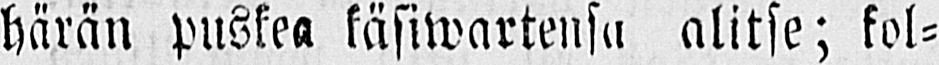härän puskea käsiwartensa alitse; kol-
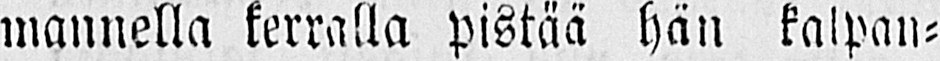mannella kerralla pistää hän kalpan-
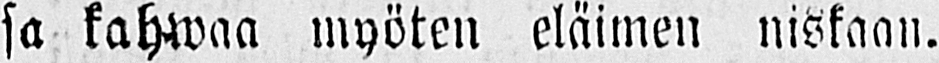sa kahwaa myöten eläimen niskaan.
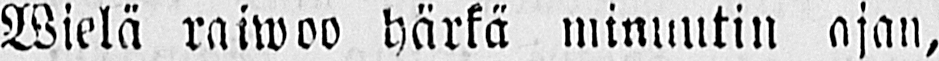Wielä raiwoo härkä minuntin ajan,
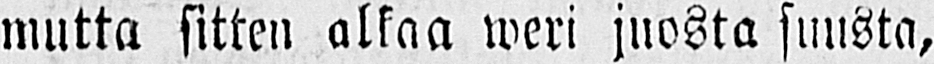mutta sitten alkaa weri juosta suusta,
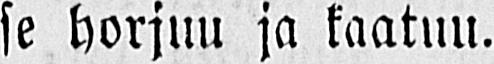se horjuu ja kaatuu.
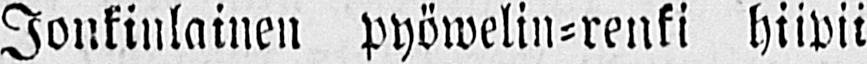Jonkinlainen pyöwelin-renki hiipii
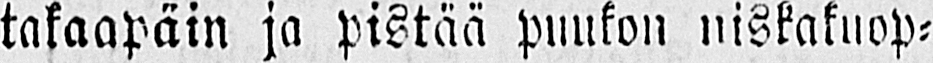takaapäin ja pistää puukon niskakuop-
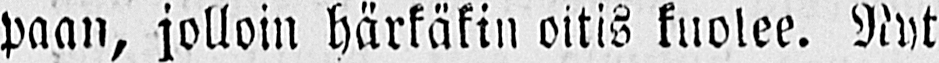paan, jolloin härkäkin oitis kuolee. Nyt
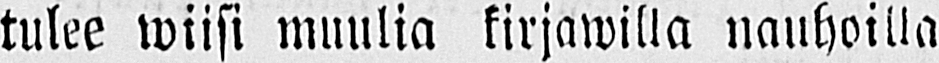tulee wiisi muulia kirjawilla nauhoilla
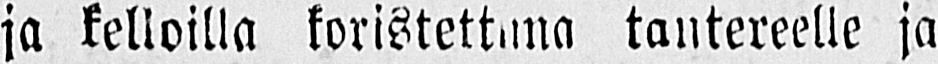ja kelloilla koristettuna tantereelle ja
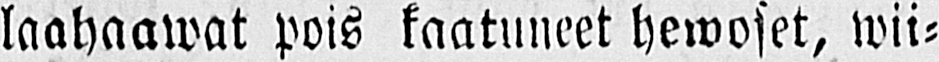laahaawat pois kaatuneet hewoset, wii-
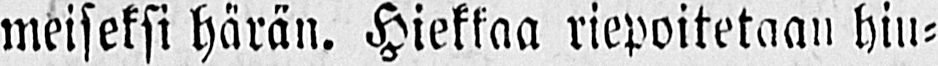meiseksi härän. Hiekkaa riepotetaan hiu-
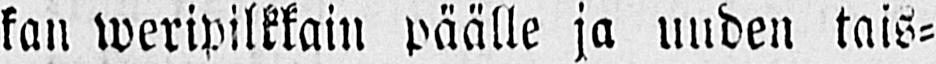kan weripilkkain päälle ja uuden tais-
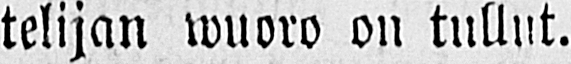telijan wuoro on tullut.
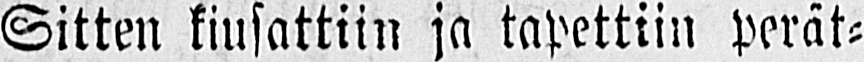Sitten kiusattiin ja tapettiin perät-
